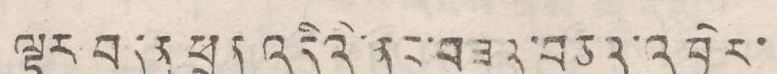ལྟར བདུན ཕྲན འདིའི་ནང་བཟའ་བཅའ་འཁྱེར་
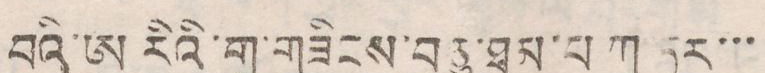བའི་ཨ རིའི་གྲུ་གཟིངས་བཅུ་ཐབ་པ ཀ ཏར་་་
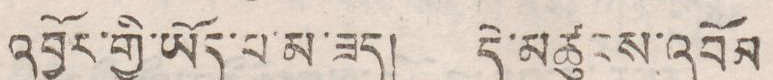འབྱོར་གྱི་ཡོད་པ་མ་ཟད། དེ་མཚུངས་འབོམ་
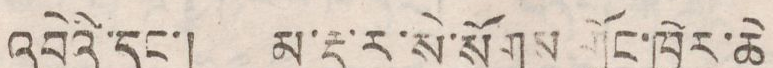འབེའི་དང་། མ་རྡ་ར་སེ་སོགས གྲོང་ཁྱེར་ཆེ
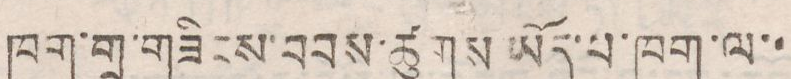ཁག་གྲུ་གཟིགས་བབས་ཚུགས ཡོད་པ་ཁག་ལ་་
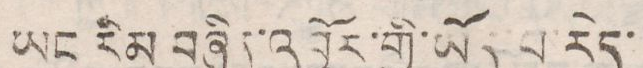ཡང རིམ བཞིན་འབྱོར་གྱི་ཡོད་པ་རེད་
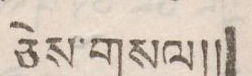ཅེས་གསལ།།
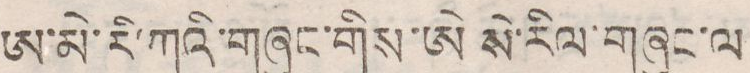ཨ་མེ་རི་ཀཨའི་གཞུང་གིས་ཨེ སེ་རིལ་གཞུང་ལ
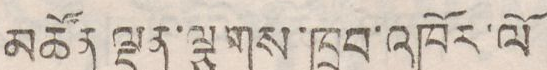མཚོན་ལྡན་ལྕགས་ཁྲབ་འཁོར་ལོ
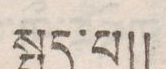སྤྲད་པ།།
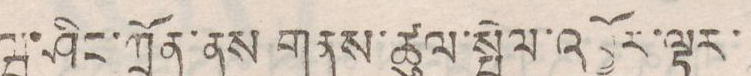ཝ་ཤིང་ཀྲོན་ནས གནས་ཚུལ་སྤེལ་འབྱོར་ལྟར་
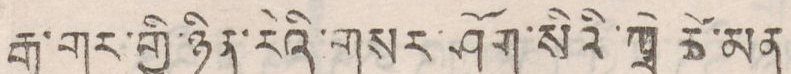རྒྱ་གར་གྱི་ཉིན་རེའི་གསར་ཤོག་སིའི་ཀྲེ་ཚེ་མན
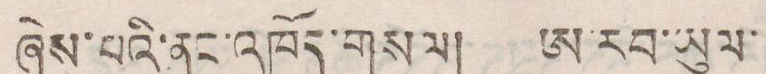ཞེས་པའི་ནང་འཁོད་གསལ། ཨ་རབ་ཡུལ་
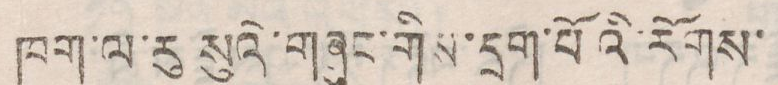ཁག་ལ་རུ སུའི་གཞུང་གིས་དྲག་པོའི་རོགས་
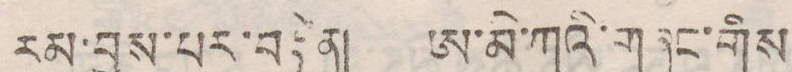རམ་བྱས་པར་བརྟེན། ཨ་མེ་ཀའི་གཞུང་གིས
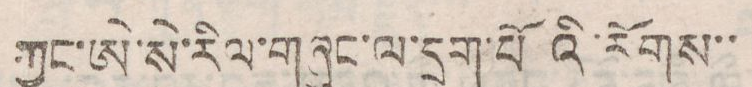ཀྱང་ཨེ་སེ་རིལ་གཞུང་ལ་དྲག་པོའི་རོགས་་
